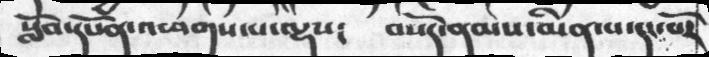སློབ་དཔོན་འཕགས་པ་ལྡས༴  བསོད་ནམས་མིན་པ་དང་པོར
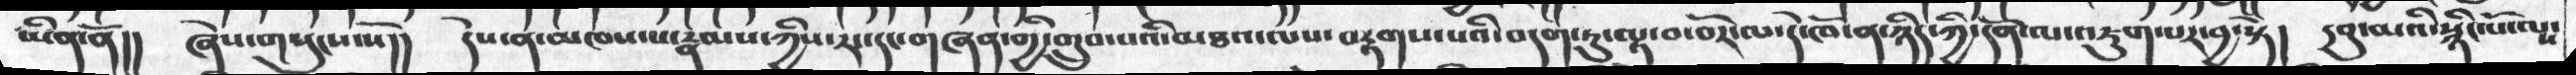ཡིན་ནོ།།  ཞེས་གསུངས་སོ།།   དེས་ན་མཁས་པ་རྣམས་ཀྱིས་རང་དང་གཞན་གྱི་གྲུབ་པའི་མཐའ་ལས་བརྟགས་པའི་བདག་ཏུ་ལྟ་བ་བོར་ལ་དེ་ཁོ་ན་ཉིད་ཀྱི་དོན་ལ་འཇུག་པར་བྱ་སྟེ།   དབུ་མའི་སྙིང་པོ་ལས་
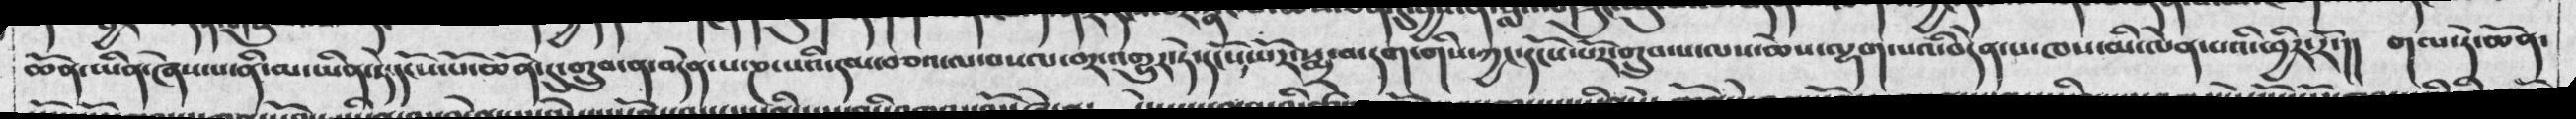ཆོན་ཡིན་ཞེས་པ་ནི་མ་ཡིན་ཏེ་དངོས་པོ་ཆོན་དུ་གྲུབ་ན་བདེན་པ་ཎ་པའི་དམ་བཅའ་ལ་བསལ་བར་འགྱུར་ཏེ་དངོས་པོར་སྨྲ་བ་དག་གིས་ཀྱང་དངོས་པོར་གྲུབ་པ་ལས་ཆེས་ལྷག་པའི་བདེན་པ་ཁས་མི་ལེན་པའི་ཕྱིར་རོ་།།   གལ་ཏེ་ཆོན་
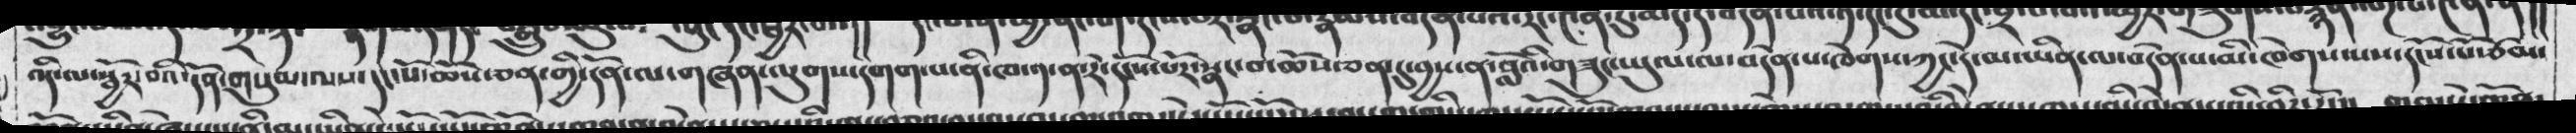འདི་ལ་སྦྱོར་བའི་དོན་གསུམ་ལས་དང་པོ་ཆོས་ཅན་གྱི་དོན་ལ་གཞན་ལུགས་དགག་པ་ནི་ཁ་༡་ན་རེ་དངོས་པོར་སྣང་བ་ཆོས་ཅན་དུ་བྱས་ན་བློའི་གཟུང་ཡུལ་ལ་བདེན་པ་ཁེགས་ཀྱང་དེ་མ་ཡིན་ལ་བདེན་པ་མི་ཁེགས་པས་དངོས་པོ་ཙམ་
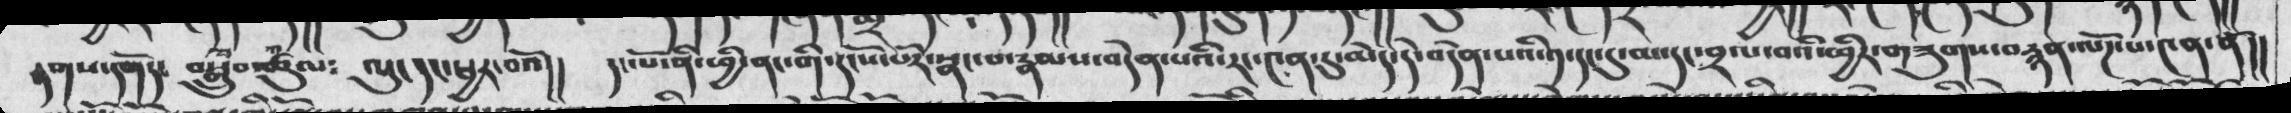རྟགས་དགོད་  ཚུལ་བསྒྲུབ༴  ལུང་དང་སྦྱར་བའོ།།  དང་པོ་ནི་ཕྱི་ནང་གི་དངོས་པོར་སྣང་པ་རྣམས་བདེན་པའི་རང་༤ན་དུ་མེད་དེ་བདེན་པའི་༡་དང་དུ་མ་དང་བྲལ་བའི་ཕྱིར་གཟུགས་བརྙན་ལོཌ་པ་༤ན་ནོ།།
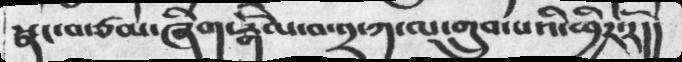སྣང་བ་རྩམ་ཞིག་རྒོལ་བ་༢་ཀ་ལ་གྲུབ་པའི་ཕྱིར་རོ།།
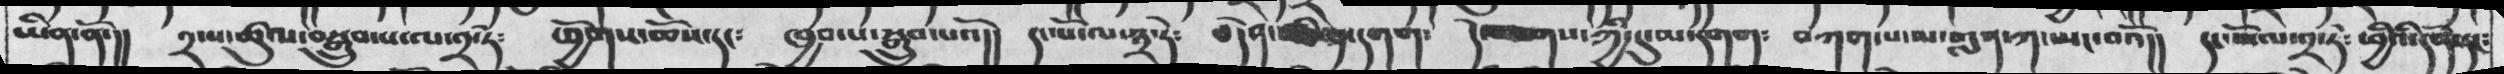ཡིན་ནོ་།།  ༢་པ་ཚུལ་བསྒྲུབས་པ་ལ་༢་ཏེ༴  ཕྱོགས་ཆོས་དང༴  ཁྱབ་པ་སྒྲུབ་པའོ།།  དང་པོ་ལ་༣་ཏེ༴   བདེན་མེད་དགག༴  དེ་གས་ཀྱི་དུ་མ་དགག༴  བཀག་པ་ལ་གླན་ཀ་སྤང་བའོ།། དང་པ་ལ་༢་ཏེ༴  ཕྱིའི་དོན་དང༴
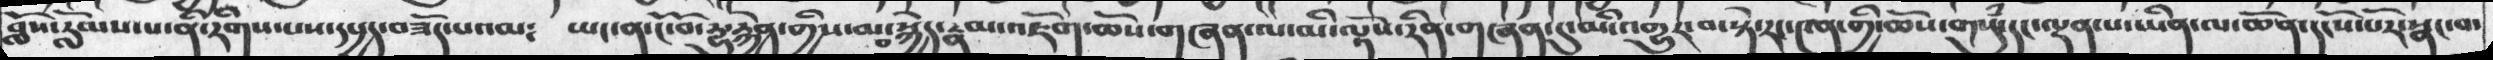བློས་རློམས་པ་ནི་རིགས་པས་དཔྱད་བཟོད་པའམ༴  ཡང་ན་ངོ་བོ་དྱུ་རྐྱེན་གྱིས་མ་བསྐྱེད་རྣམ་འཇོག་ཆོས་གཞན་ལ་མི་ལྟོས་རིན་གཞན་དུ་མི་འགྱུར་བ་སྟེ་རང་༤ན་གྱི་ཆོས་གསུཾ་དང་ལྡན་པ་ཡིན་ལ་ཆོན་དངོས་པར་སྣང་བ་
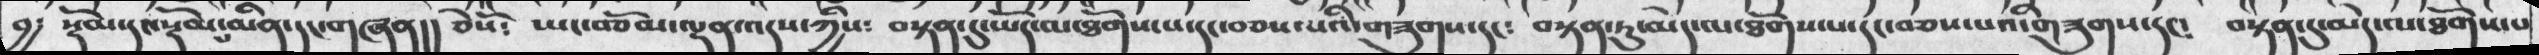བྱ༴  སྡོམ་དང་སྡོམ་པ་མན་དང་གཞན།།  ཅེསོ༴  ཡང་བཅོམ་ལྡན་འདས་ཀྱིས༴   བསྟན་དུ་ཡོད་ལ་ཐོགས་དང་བཅས་པའི་གཟུགས་དང༴  བསྟན་ཏུ་མེད་ལ་ཐོས་པ་དང་བཅས་པའི་གཟུགས་དང༴  བསྟན་དུ་མེད་ལ་ཐོགས་པ
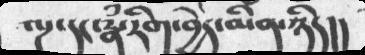ལྔ་དང་རྣཾ་རིག་བྱེད་མིན་ཉིད།།
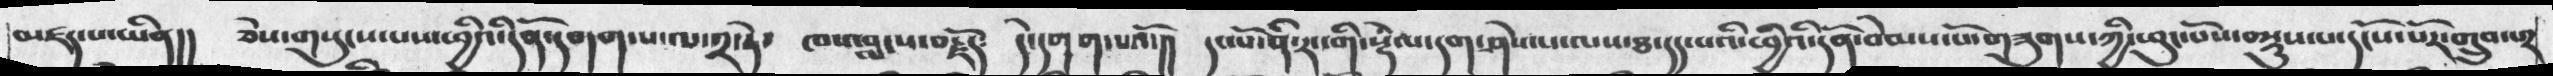མཛད་པ་ཡིན།། ཅེས་གསུངས་པས་ཕྱིའ་དོན་དགག་པ་ལ་༢་ཏེ་  ཁས་བླངས་བརྗོད༴  དེ་དགག་པའོ་།།  དལཔོ་ནི་རང་གི་སྡེལ་དག་ཤེས་པ་ལས་ཐ་དད་པའི་ཕྱིའི་དོན་བེམས་པོ་གཟུགས་ཀྱི་ཕུང་པོས་བསྡུས་པ་དངོས་པོར་གྲུབ་པར
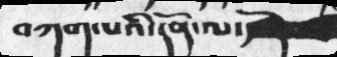བཀག་པའི་དོན་ལ་
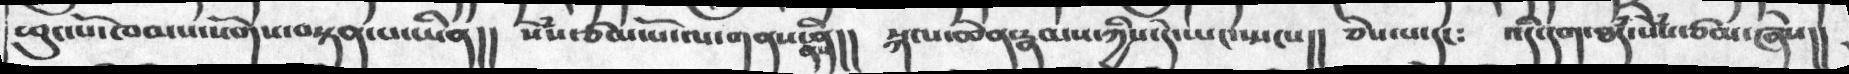ཕུང་པོ་ཁམས་སོགས་བསྟན་པ་ཡིན།།  སེཾས་ཙམ་པོ་ལ་གནས་ནས་ནི།།  སྐལ་ཆེན་རྣམས་ཀྱིས་དེ་ཡང་སྤངས།།  ཅེས་པ་དང༴  འདི་དག་ཐཾད་སེཾས་ཙམ་ཞེས།།
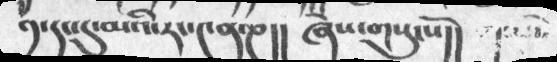༡་དང་དུ་མའི་རང་༤ན་ཎ།།  ཞེས་གསུངསོ།།
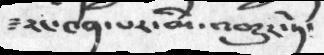༴རང་༤ན་པར་མི་འགྱུར་ཏེ་
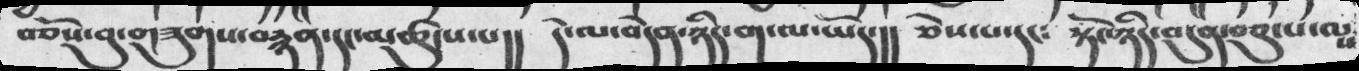བཅོས་བུ་གཟུགས་བརྙན་དང་མཚུངས་པ།།  དེ་ལ་བདེན་ཉིད་ག་ལ་ཡོད་།།  ཅེས་པ་དང༴   སྟོང་ཉིད་བདུན་བཅུ་པ་ལས
